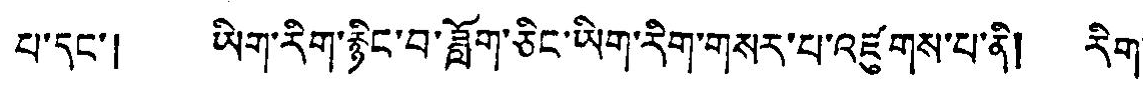པ་དང་། ཡིག་རིག་རྙིང་བ་ཟློག་ཅིང་ཡིག་རིག་གསར་པ་འཛུགས་པ་ནི། རིག་
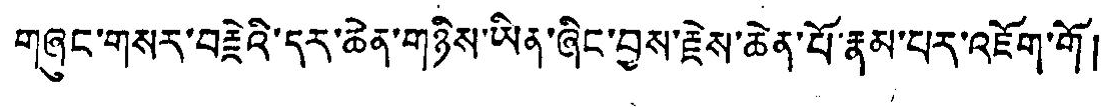གཞུང་གསར་བརྗེའི་དར་ཆེན་གཉིས་ཡིན་ཞིང་བྱས་རྗེས་ཆེན་པོ་རྣམ་པར་འཇོག་གོ།
